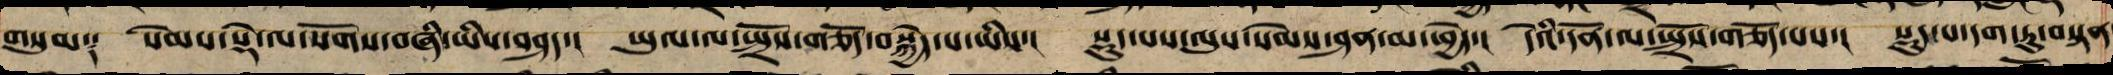གསུམ༑ སེམས་སྡེ་ལ་སོགས་བཞི་ཡིས་བཤད་། ཡུལ་ལ་སྤྲོས་གཅོད་བསྐྱེད་པ་ཡིས་། སྡུད་པས་ལུས་སེམས་ཤན་མ་ཕྱེད་། དེའི་དོན་ལ་སྤྲོས་གཅོད་པས་། སྡུད་པ་དག་ཏུ་བསྟན་
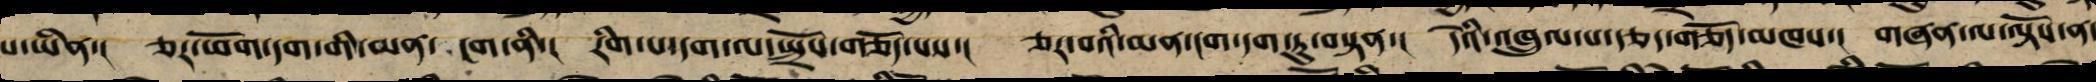པ་ཡིན་། ཅར་ཕོག་དག་གི་མན་ ངག་ནི་། རིག་པ་དག་ལ་སྤྲོས་གཅོད་པས་། ཅར་བའི་མན་ངག་དག་ཏུ་བསྟན་། དེའི་འཁྲུལ་པ་རྩད་གཅོད་མཁས་། གཞན་ལ་ལྟོས་ན་
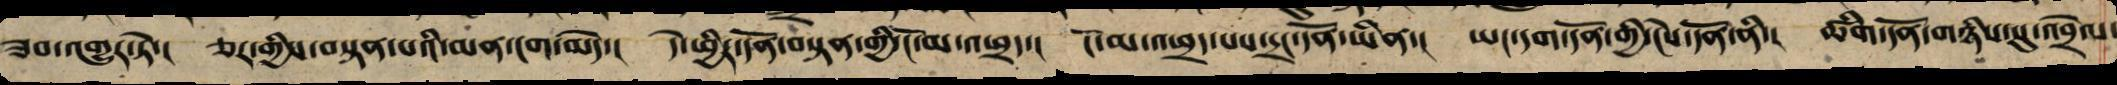ཟབ་འགྱུར་ཏེ་། ཅར་གྱིས་བསྟན་པའི་མན་ངག་མེད་། དེ་ཕྱིར་དོན་བསྟན་གྱི་ངོ་མ་འཕྲད་། ངོ་མ་འཕྲད་པས་དྲང་དོན་ཡིན་། ཡང་དག་དོན་གྱི་ངེས་དོན་ནི་། ཚིག་དོན་གཉིས་སུ་འབྲེལ་
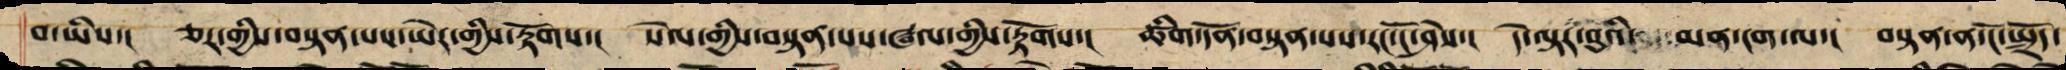བ་ཡིས་། ཅར་གྱིས་བསྟན་པས་ཡེར་གྱིས་རྟོགས་། སེལ་གྱིས་བསྟན་པས་ཝལ་གྱིས་རྟོགས་། ཚིག་དོན་བསྟན་པས་རང་ངོ་ཤེས་། དེ་ལྟ་བུའི་ མན་ངག་ལ་། བསྟན་ན་ངོ་སྤྲོད་
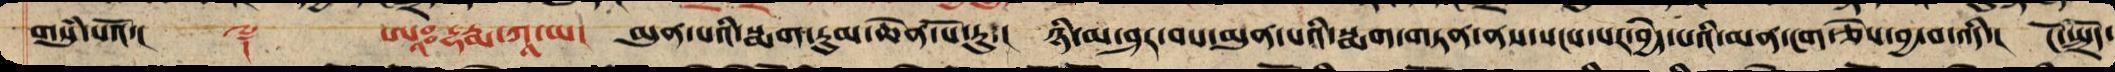གསུཾ་པའོ་།། ༈ ཨཱཿདྷརྨ་ཀཱ་ཡ། མུན་པའི་སྨག་རུམ་ཆེན་པོ་རུ་། ཉི་མ་ཤར་བས་མུན་པའི་སྨག་གཏན་ནས་སངས་པར་བྱེད་པའི་མན་ངག་ཅེས་བྱ་བ་འདི་། ངོ་སྤྲོད་
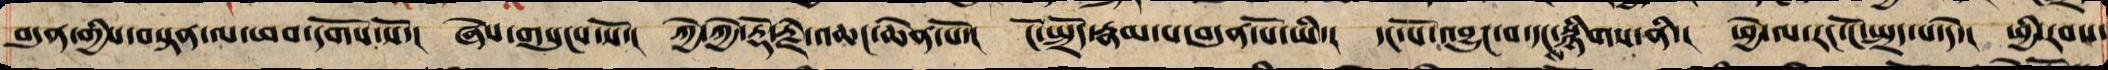བདུན་གྱིས་བསྟན་ལ་ཕབ་དགོས་སོ་། ཞེས་གསུངས་སོ་། ཀྱེ་ཀྱེ་རྡོ་རྗེ་འཆང་ཆེན་པོ་། ངོ་སྤྲོད་རྣམ་པ་བདུན་པོ་ཡི་། དང་པོ་འབྱུང་བ་དང་སྙིགས་ནི་། ཕྱེ་ལ་རང་ངོ་སྤྲད་པ་དེ་། ཕྱི་རབས་
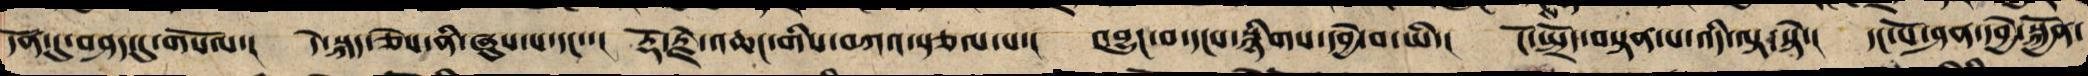དོན་དུ་བཤད་དུ་གསོལ་། དེ་སྐད་ཅེས་ནི་ཞུས་པ་དང་་། རྡོ་རྗེ་འཆང་གིས་བཀའ་སྩལ་པ་། འབྱུང་བ་དངས་སྙིགས་དབྱེ་བ་ཡི་། ངོ་སྤྲོད་བསྟན་པ་འདི་ལྟ་སྟེ་། དང་པོ་ཤན་དབྱེ་སྐྱོན་
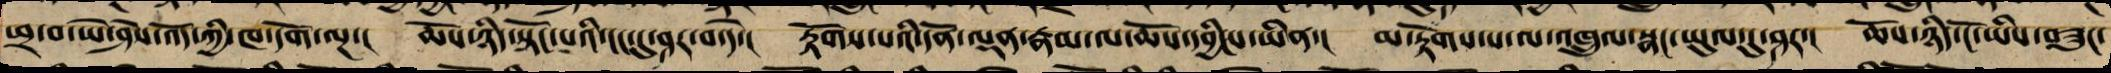ཕྲ་བ་ཡེ་ཤེས་འོད་ཀྱི་ཁ་དོག་ལྔ་། ཆོས་ཉིད་སྟོང་པའི་ངང་དུ་ཤར་བ་དེ་། རྟོགས་པའི་དོན་ལྡན་རྣམ་ལ་ཆོས་དབྱིངས་ཡིན་། མ་རྟོགས་པ་ལ་འཁྲུལ་སྣང་ཡུལ་དུ་ཤར་། ཆོས་ཉིད་ངོ་ཡིས་བཟུང་
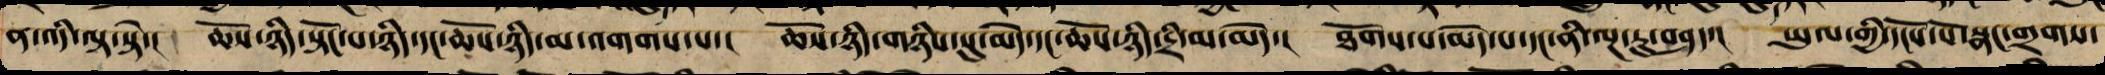ན་འདི་ལྟ་སྟེ་། ཆོས་ཉིད་སྟོང་པ་ཉིད་དང་ཆོས་ཉིད་མ་འགགས་པ་། ཆོས་ཉིད་གཉིས་སུ་མེད་དང་ཆོས་ཉིད་དྲི་མ་མེད་། ཐོགས་པ་མེད་པ་དང་ནི་ལྔ་རུ་བཤད་། ཡུལ་གྱི་དངོས་པོ་སྣང་གྲགས་
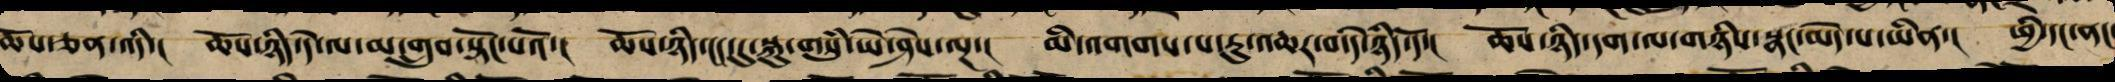ཆོས་ཅན་འདི་། ཆོས་ཉིད་དེ་ལ་མ་གྲུབ་སྟོང་པའོ་། ཆོས་ཉིད་ངང་དུ་སྐུ་གསུཾ་ཡེ་ཤེས་ལྔ་། མི་འགགས་པ་རུ་འཆར་བ་དེ་ཉིད་དོ་། ཆོས་ཉིད་དག་ལ་གཉིས་སྣང་མེད་པ་ཡིན་། ཕྱི་དང་ནང་
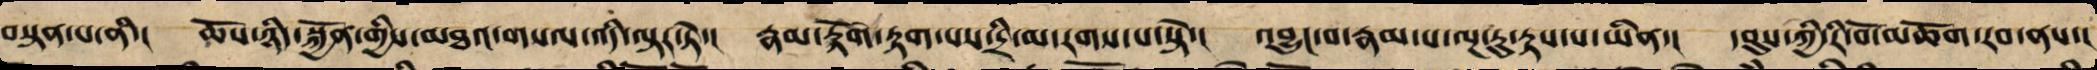བསྟན་པ་ནི་། ཆོས་ཉིད་སྐྱོན་གྱིས་མཐའ་གསལ་འདི་ལྟར་ཏེ་། རྣམ་རྟོག་རྟག་པས་དྲི་མ་རགས་པ་སྟེ་། འབྱུང་བ་རྣམ་པ་ལྔ་རུ་རྟས་པ་ཡིན་། དབུས་ཀྱི་རི་བོ་མཆོག་རབ་ནས་།
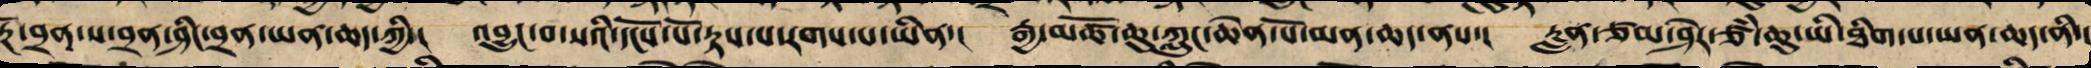རྔོ་བྲན་ས་བྲན་ཤིང་བྲན་ཡན་ཆད་ཀྱི་། འབྱུང་བ་སའི་དངོས་པོར་རྟས་པ་རགས་པ་ཡིན་། རྒྱ་མཚོ་ཆུ་ཀླུང་ཆེན་པོ་མན་ཆད་ནས་། རླན་ཙམ་གཤེར་ཙཾ་ཆུ་ཡི་ཐིག་པ་ཡན་ཆད་ནི་།
